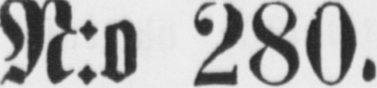N:o 280.
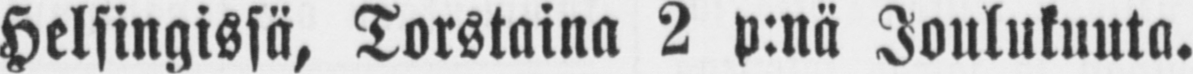Helsingissä, Torstaina 2 p:nä Joulukuuta.
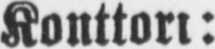Konttort:
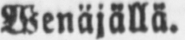Wenäjällä.
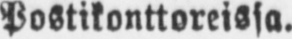Postikonttoreissa.
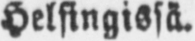Helsingissä.
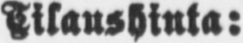Tilaushinta:
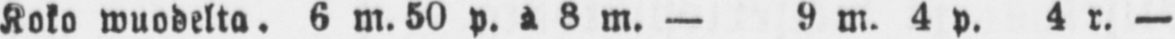Koko wuodelta. 6 m. 50 p. a 8 m. — 9 m. 4 p. 4 r. —
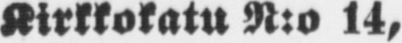Kirkkokatu N:o 14,
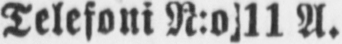Telefoni N:o 11 A.
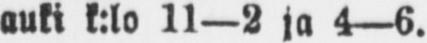auki k:lo 11—2 ja 4—6.
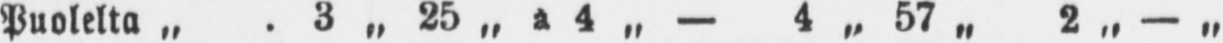Puolelta „ . 3 „ 25 „ a 4 „ — 4 „ 57 „ 2 „ — „
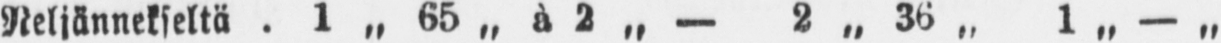Neljännekseltä . 1 „ 65 „ ä 2 „ — 2 „ 36 „ 1 „ — ,,
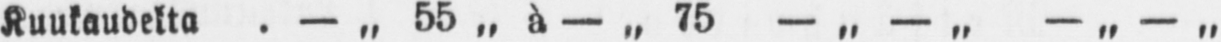Kuukaudelta . — „ 55 „ ä — „ 75 — „ — „ — „ — „
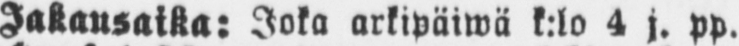Jakausaika: Joka arkipäiwä k:lo 4 j. pp.
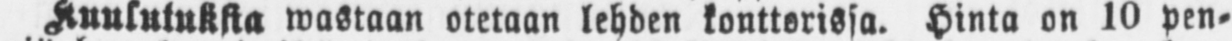kuulutuksta wastaan otetaan lehden konttorissa. Hinta on 10 pen-
